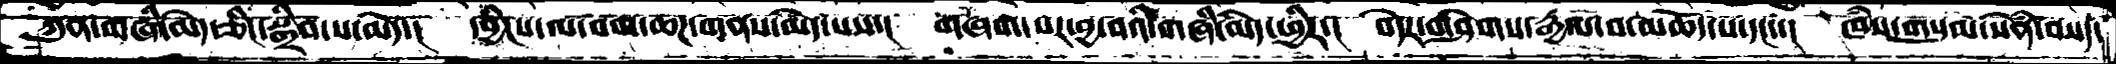ཀུན་གཞི་མེད་ཅིང་སྒྲིབ་པ་མེད་།  དབྱིངས་ལ་བག་ཆཌ་གནས་མེད་པས་།  གཞག་པར་བྱ་བའི་གཞི་མེད་ཕྱིར་།  བདེར་གཤེགས་རྒྱལ་བ་མཆོད་པ་དང་་།  ཁཾས་གསུམ་སེཾན་བསད་
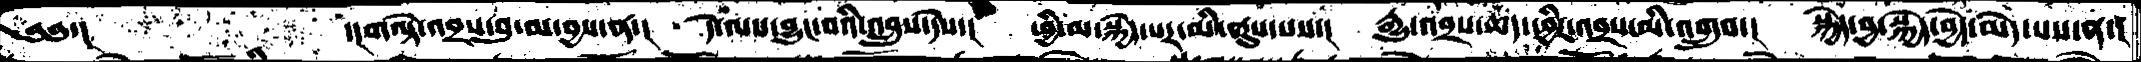༄༅་།           ་།གལྟེ་འབྲས་བུ་མ་བྱས་ན་།    དེ་ལས་བྱུང་བའི་འབྲུས་དེས་།   ཕྱི་མ་སྐྱེད་པར་མི་ནུས་པས་།   རྒྱུ་འབྲས་ཆད་ཕྱིར་འབྲས་མི་འགྲུབ་།   སྐྱེད་བྱ་སྐྱེད་བྱེད་མེད་པས་ན་།
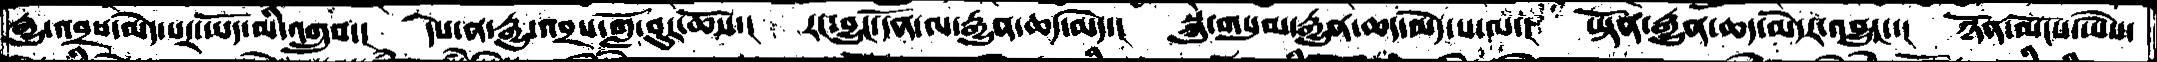རྒྱུ་འབྲས་མེད་པར་ཡོད་མི་འགྲུབ་།   དེས་ན་རྒྱུ་འབྲས་གློ་བུར་ཆོས་།   རང་བྱུང་དོན་ལ་རྒྱུན་ཆད་མེད་།   སྐུ་གསུམ་རྒྱུན་ཆད་མེད་པ་ལ་།   ཡྟོན་རྒྱུན་ཆད་མེདར་འབྱུང་།   ཉོན་མོངས་ཡཻས་
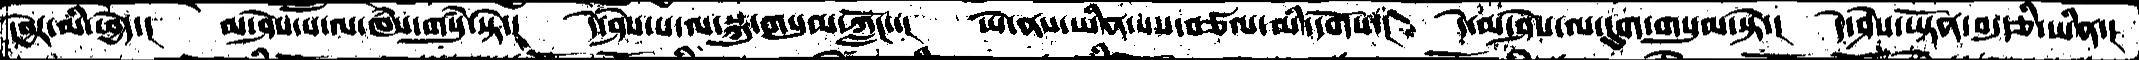དབྱེར་མི་ཕྱེད་།   མ་ཤེས་པ་ལ་ཁཾས་གསུཾ་སྟེ་།   དེ་ཤེས་པ་ལ་སྐུ་གསུམ་ཀློང་་།   ཡེ་ནས་ཡིན་པས་བཙལ་མི་དགོས་།   དེ་མ་ཤེས་ལ་དུག་གསུམ་སྟེ་།   དེ་ཤེས་ཡྟོན་བདུདཅི་ཡིན་།
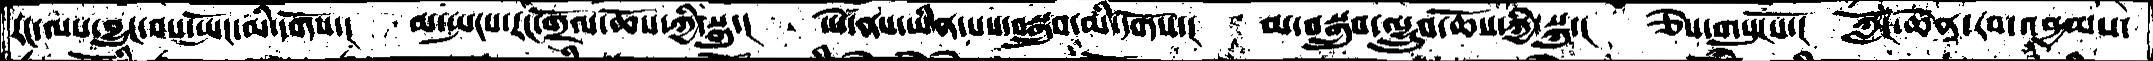རང་ལས་བྱུང་བས་སྤོང་མི་དགོས་།   མ་སྤངས་རང་གྲོལ་ཆོས་ཀྱི་སྐུ་།   ཡེ་ནས་ཡིན་པས་བསྒྲུབ་མི་དགོས་།   མ་བསྒྲུབ་ལྷྲུབ་ཆོས་ཀྱི་སྐུ་།   ཅེས་གསུངསོ་།  ཀློང་ཆེན་རབ་འབྱམས་
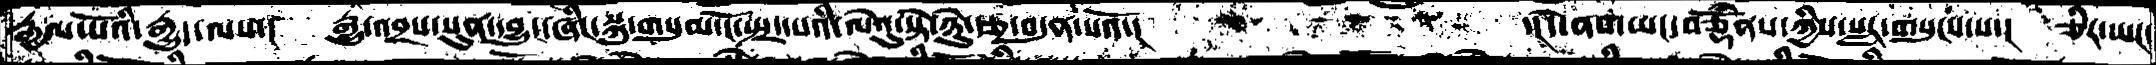རྒྱལ་པོའི་རྒྱུད་ལས་།   རྒྱུ་འབྲས་སུན་དབྱུང་ཞིང་སྐུ་གསུམ་ངོ་སྤྲད་པའི་ལེའུ་སྟེ་ཉེུ་རྩ་བདུན་པའོ་།                   ་།དེ་ནས་ཡང་བཅྡོཾནས་ཀྱིས་སླར་གསུངས་པ་།   ཅིར་ཡང་
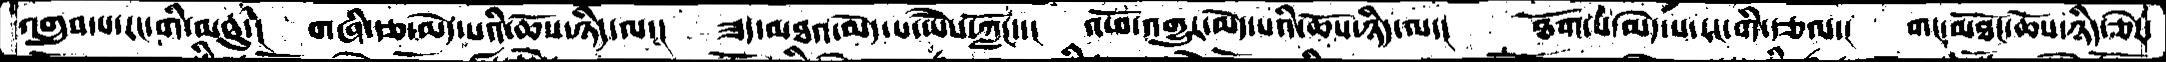འགྲུབ་པ་རང་གི་མཐུ་།  གཞི་རྩ་མེད་པའི་ཆོས་ཉིད་ལ་།  ཟད་མཐའ་མེད་པ་ཡཻས་ཀློང་་།   འཕོ་འགྱུར་མེད་པའི་ཆོས་ཉིད་ལ་།   ཐོག་པ་མེད་པ་རང་གི་རྩལ་།   གང་མཐོང་ཆོས་ཉིད་ཅེར་
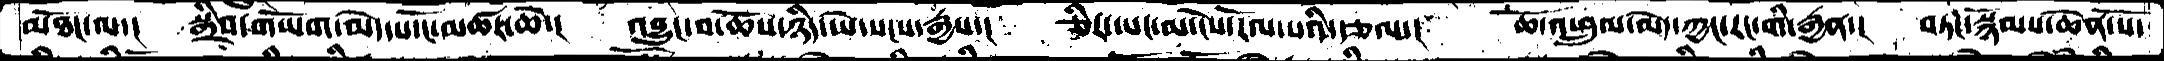མཐོང་ལ་།   སྒྲིབ་གཡོག་མེད་པ་ངོ་མཚར་ཆེ་།    འབྱུང་བ་ཆོས་ཉིད་ཡེ་སངས་རྒྱས་།    ཅིར་ཡང་མ་ངེས་རོལ་པའི་རྩལ་།     ཆོ་འཕྲུལ་མེད་ཀྱང་རང་གི་རྒྱན་།   བཏང་སྙོམས་ཆེན་པོ་
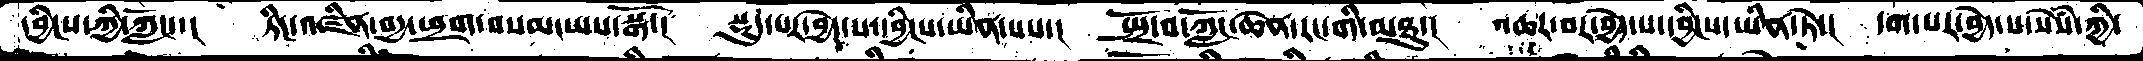དབྱིངས་ཀྱི་ཀློང་་།  ཏིང་་འཛིན་བདྱ་ཕྲག་བསམ་ཡས་སྒོ་།  སྡུད་པར་བྱེེད་པ་དབྱིངས་ཡིན་པས་།  སྤྲོ་བ་ཀློང་ཆེན་རང་གི་མཐུ་།   འཆར་བར་བྱེད་པ་དབྱིངས་ཡིན་ཏེ་།  དག་པར་བྱེད་པ་སེསཾ་ཀྱི་
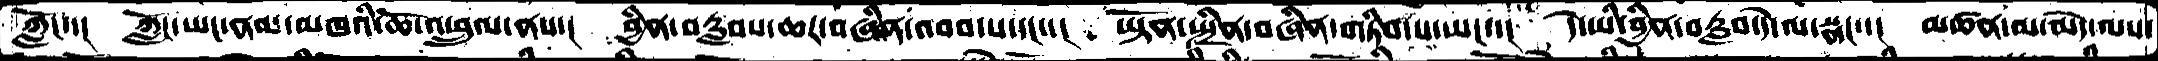ཀློང་་།  ཀློང་ཡང་ནམ་མཁའི་ཆོ་འཕྲུལ་ནས་།  བྱིན་བརླབས་ཆར་བཞིན་འབབ་པ་དང་་།  ཡྟོན་སྤྲིན་བཞིན་གཏིབ་པ་ཡང་་།  དེ་ཡི་བྱིན་བརླབ་དེ་ལ་སྣང་་།  མཚན་མ་མེད་ལས་
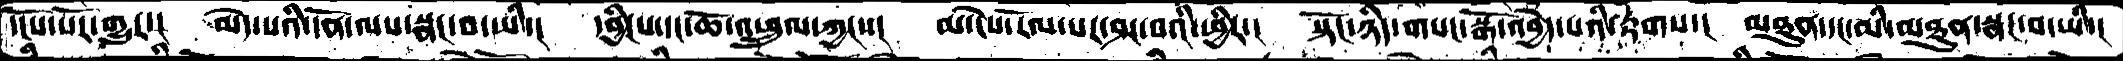དངོས་པོར་གྱུར་།  མེད་པའི་དོན་ལས་སྣང་བ་ཡི་།  དབྱིངས་དང་ཆོ་འཕྲུལ་ཀྱང་་།  མ་ངེས་རོལ་པར་ཤར་བའི་ཕྱིར་།  སྟོང་ཉིད་གསང་སྒོ་འབྱེད་པའི་རྟགས་།  མཐུན་དང་མི་མཐུན་སྣང་བ་ཡི་།
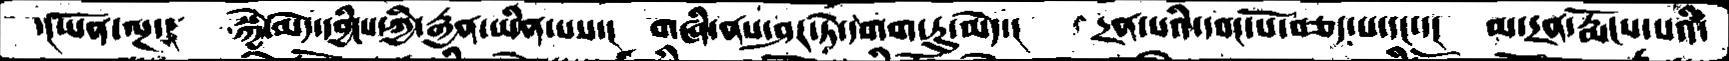་།ཡོན་ལྔ་།  སྐྱེ་མེད་དབྱིངས་ཀྱི་རྒྱན་ཡིན་པས་།  གཞི་ནས་ཤར་ཏེ་དགག་ཏུ་མེད་།  དྲན་པའི་དབང་པོ་བཅད་པ་དང་་།  མ་དྲན་རྨོངས་པའི་
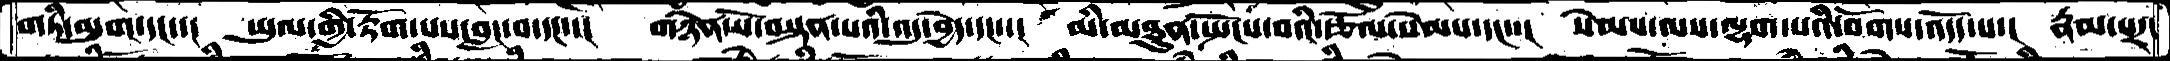གཏི་མུག་དང་་།  ཡུལ་གྱི་རྟོག་པས་བླང་བ་དང་་།  གཉེན་པོ་བསྟན་པའི་འདུ་བྱེད་དང་་།  མི་མཐུན་སྤོངས་བའི་རྩོལ་སེམས་དང་་།  སེམས་ལས་ལྷག་པའི་བོགས་འདོད་པ་།  རྣམ་པར་
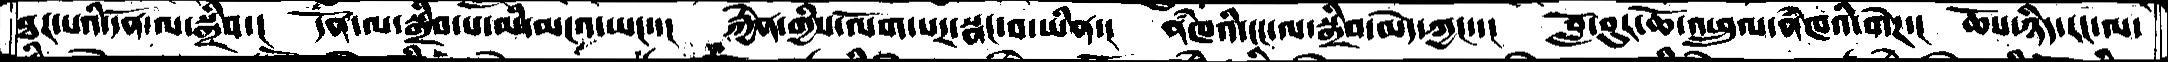ཐར་པའི་དོན་ལ་སྒྲིབ་།  དོན་ལ་སྒྲིབ་པ་མི་མངའ་ཡང་་།  རྐྱེན་གྱིས་ལོག་པར་སྣང་བ་ཡིན་།  ནཾཁའི་ངང་ལ་སྒྲིབ་མེད་ཀྱང་་།  བློ་བུར་ཆོ་འཕྲུལ་ནཾཁའི་གེཌ་།  ཆོས་ཉིད་རང་ལ་
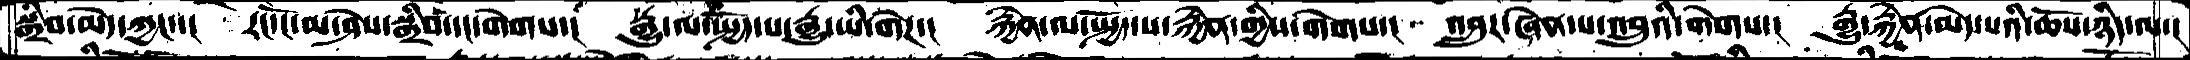སྒྲིབ་མེད་ཀྱང་་།  རང་ངོ་མ་ཤེས་སྒྲིབ་དང་གེགས་།  རྒྱུ་ལ་སྤྱོད་པ་རྒྱུ་ཡི་གེཌ་།  རྐྱེན་ལ་སྤྱོད་པ་རྐྱེན་གྱིས་གེགས་།  འབྲུར་ཞེན་པ་འབྲུའི་གེགས་།  རྒྱུ་རྐྱེན་མེད་པའི་ཆོས་ཉིད་ལ་།
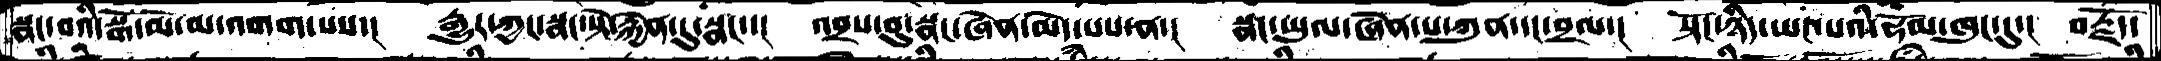སྣང་བའི་སྒོ་མོ་མ་འགགས་པས་།  རྒྱུར་ཀྱང་སྣང་སྟེ་རྐྱེན་དུ་སྣང་་།  འབྲུས་བུ་སྣང་ཞེན་མེད་པས་ན་།  སྣང་ཡུལ་ཞེན་པ་ཀུན་དང་བྲལ་།  སྟོང་ཉིང་ཡང་པའི་ཧོམ་ཁུང་དུ་།  བརྗོད་
